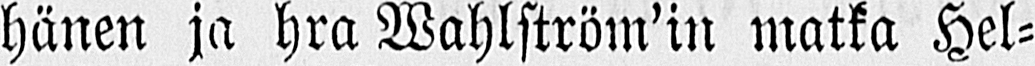hänen ja hra Wahlström'in matka Hel-
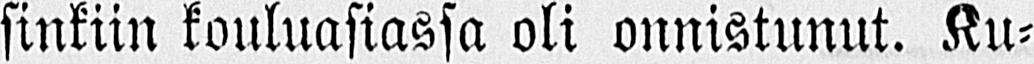sinkiin kouluasiassa oli onnistunut. Ku-
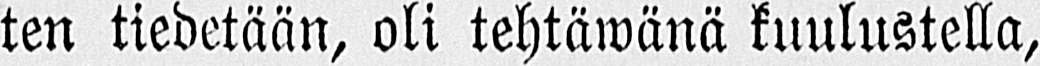ten tiedetään, oli tehtäwänä kuulustella,
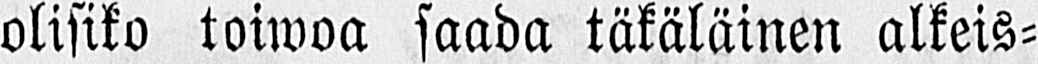olisiko toiwoa saada täkäläinen alkeis-
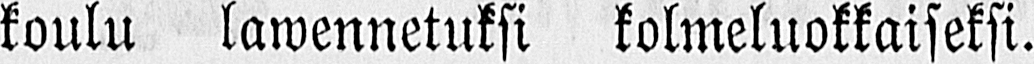koulu lawennetuksi kolmeluokkaiseksi.
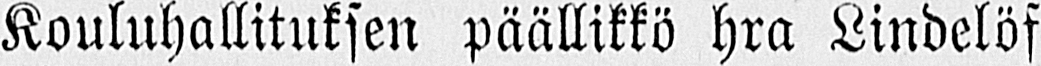Kouluhallituksen päällikkö hra Lindelöf
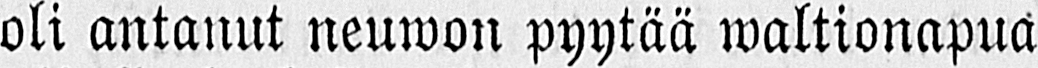oli antanut neuwon pyytää waltionapua
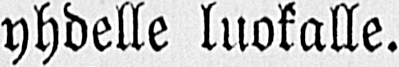yhdelle luokalle.
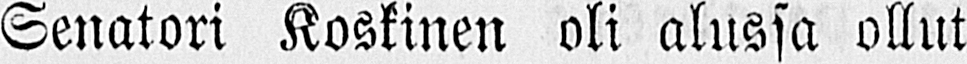Senatori Koskinen oli alussa ollut
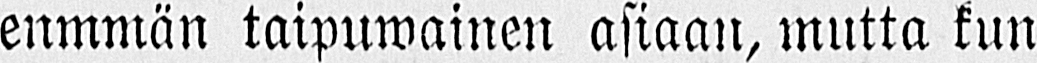enmmän taipuwainen asiaan, mutta kun
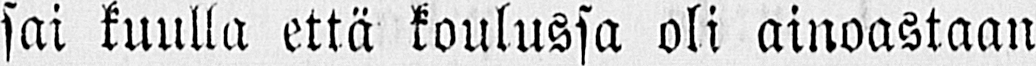sai kuulla että koulussa oli ainoastaan
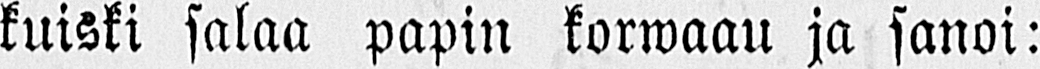kuiski salaa papin korwaau ja sanoi:
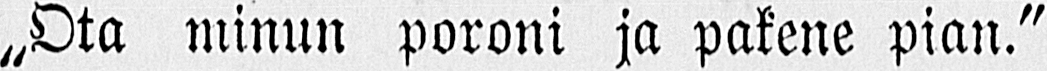„Ota minun poroni ja pakene pian."
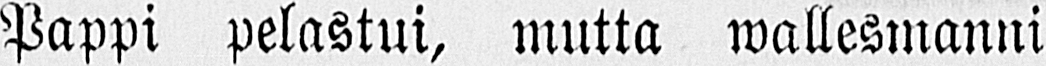Pappi pelastui, mutta wallesmanni
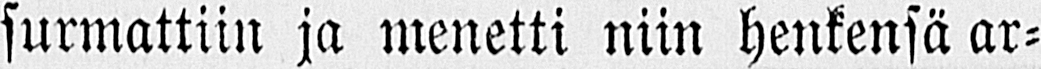surmattiin ja menetti niin henkensä ar-
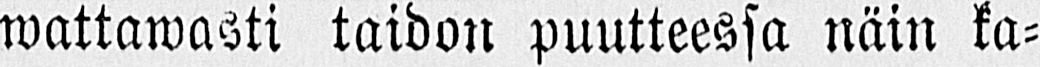wattawasti taidon puutteessa näin ka-
